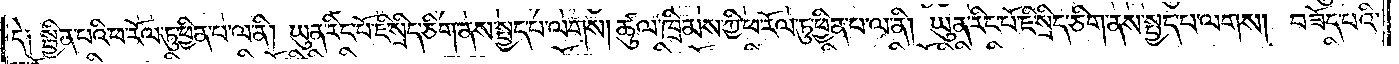དེ༑ སྦྱིན་པའི་ཕ་རོལ་ཏུ་ཕྱིན་པ་ལ་ནི། ཡུན་རིང་པོ་ཇི་སྲིད་ཅིག་ནས་སྤྱད་པ་ལགས། ཚུལ་ཁྲིམས་ཀྱི་ཕ་རོལ་ཏུ་ཕྱིན་པ་ལ་ནི། ཡུན་རིང་པོ་ཇི་སྲིད་ཅིག་ནས་སྤྱད་པ་ལགས། བཟོད་པའི་
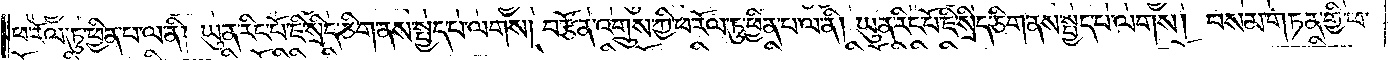ཕ་རོལ་ཏུ་ཕྱིན་པ་ལ་ནི། ཡུན་རིང་པོ་ཇི་སྲིད་ཅིག་ནས་སྤྱད་པ་ལགས། བརྩོན་འགྲུས་ཀྱི་ཕ་རོལ་ཏུ་ཕྱིན་པ་ལ་ནི། ཡུན་རིང་པོ་ཇི་སྲིད་ཅིག་ནས་སྤྱད་པ་ལགས། བསམ་གཏན་གྱི་ཕ་
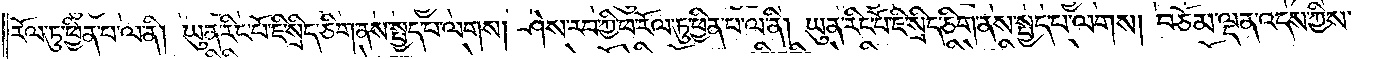རོལ་ཏུ་ཕྱིན་པ་ལ་ནི། ཡུན་རིང་པོ་ཇི་སྲིད་ཅིག་ནས་སྤྱོད་པ་ལགས། ཤེས་རབ་ཀྱི་ཕ་རོལ་ཏུ་ཕྱིན་པ་ལ་ནི། ཡུན་རིང་པོ་ཇི་སྲིད་ཅིག་ནས་སྤྱད་པ་ལགས། བཅོམ་ལྡན་འདས་ཀྱིས་
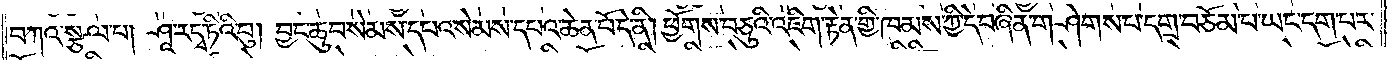བཀའ་སྩལ་པ། ཤཱ་ར་དྭ་ཏིའི་བུ། བྱང་ཆུབ་སེམས་དཔའ་སེམས་དཔའ་ཆེན་པོ་དེ་ནི། ཕྱོགས་བཅུའི་འཇིག་རྟེན་གྱི་ཁམས་ཀྱི་དེ་བཞིན་གཤེགས་པ་དགྲ་བཅོམ་པ་ཡང་དག་པར་
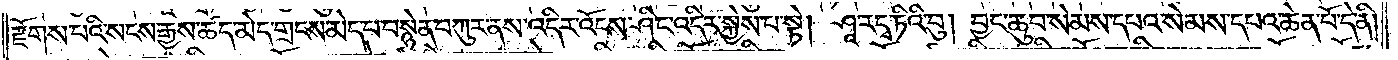རྫོགས་པའི་སངས་རྒྱས་ཚད་མེད་གྲངས་མེད་པ་བསྙེན་བཀུར་ནས་འདིར་འོངས་ཤིང་འདིར་སྐྱེས་པ་སྟེ། ཤཱ་ར་དྭ་ཏིའི་བུ། བྱང་ཆུབ་སེམས་དཔའ་སེམས་དཔའ་ཆེན་པོ་དེ་ནི།
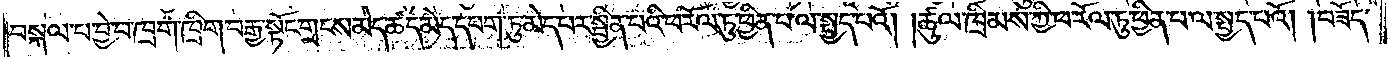བསྐལ་པ་བྱེ་བ་ཁྲག་ཁྲིག་བརྒྱ་སྟོང་གྲངས་མེད་ཚད་མེད་དཔག་ཏུ་མེད་པར་སྦྱིན་པའི་ཕ་རོལ་ཏུ་ཕྱིན་པ་ལ་སྤྱད་པའོ། །ཚུལ་ཁྲིམས་ཀྱི་ཕ་རོལ་ཏུ་ཕྱིན་པ་ལ་སྤྱད་པའོ། །བཟོད་
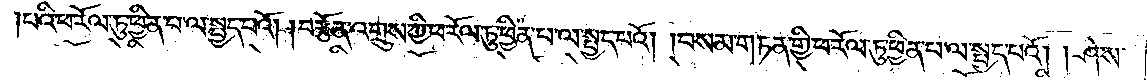པའི་ཕ་རོལ་ཏུ་ཕྱིན་པ་ལ་སྤྱད་པའོ། །བརྩོན་འགྲུས་ཀྱི་ཕ་རོལ་ཏུ་ཕྱིན་པ་ལ་སྤྱད་པའོ། །བསམ་གཏན་གྱི་ཕ་རོལ་ཏུ་ཕྱིན་པ་ལ་སྤྱད་པའོ། །ཤེས་
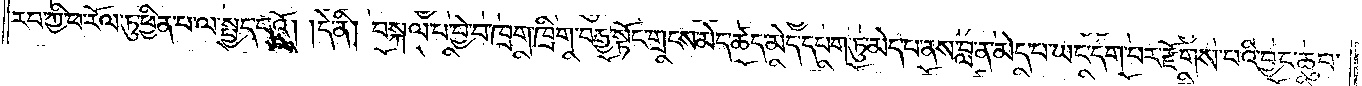རབ་ཀྱི་ཕ་རོལ་ཏུ་ཕྱིན་པ་ལ་སྤྱད་པའོ། །དེ་ནི། བསྐལ་པ་བྱེ་བ་ཁྲག་ཁྲིག་བརྒྱ་སྟོང་གྲངས་མེད་ཚད་མེད་དཔག་ཏུ་མེད་པ་ནས་བླ་ན་མེད་པ་ཡང་དག་པར་རྫོགས་པའི་བྱང་ཆུབ་
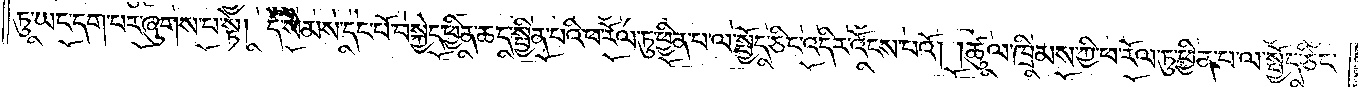ཏུ་ཡང་དག་པར་ཞུགས་པ་སྟེ། དེ་སེམས་དང་པོ་བསྐྱེད་ཕྱིན་ཆད་སྦྱིན་པའི་ཕ་རོལ་ཏུ་ཕྱིན་པ་ལ་སྤྱོད་ཅིང་འདིར་འོངས་པའོ། །ཚུལ་ཁྲིམས་ཀྱི་ཕ་རོལ་ཏུ་ཕྱིན་པ་ལ་སྤྱོད་ཅིང་
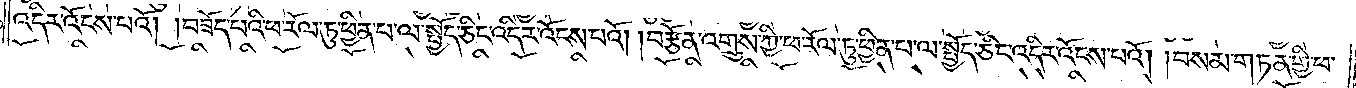འདིར་འོངས་པའོ། །བཟོད་པའི་ཕ་རོལ་ཏུ་ཕྱིན་པ་ལ་སྤྱོད་ཅིང་འདིར་འོངས་པའོ། །བརྩོན་འགྲུས་ཀྱི་ཕ་རོལ་ཏུ་ཕྱིན་པ་ལ་སྤྱོད་ཅིང་འདིར་འོངས་པའོ། །བསམ་གཏན་གྱི་ཕ་
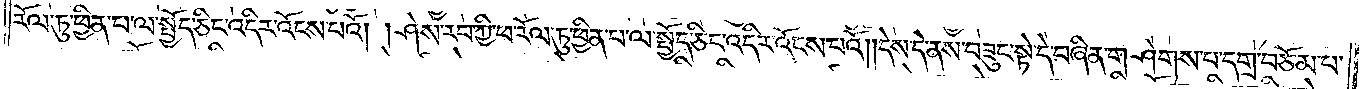རོལ་ཏུ་ཕྱིན་པ་ལ་སྤྱོད་ཅིང་འདིར་འོངས་པའོ། །ཤེས་རབ་ཀྱི་ཕ་རོལ་ཏུ་ཕྱིན་པ་ལ་སྤྱོད་ཅིང་འདིར་འོངས་པའོ། །དེས་དེ་ནས་བཟུང་སྟེ་དེ་བཞིན་གཤེགས་པ་དགྲ་བཅོམ་པ་
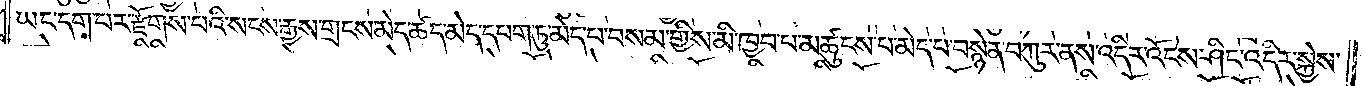ཡང་དག་པར་རྫོགས་པའི་སངས་རྒྱས་གྲངས་མེད་ཚད་མེད་དཔག་ཏུ་མེད་པ་བསམ་གྱིས་མི་ཁྱབ་པ་མཚུངས་པ་མེད་པ་བསྙེན་བཀུར་ནས་འདིར་འོངས་ཤིང་འདིར་སྐྱེས་
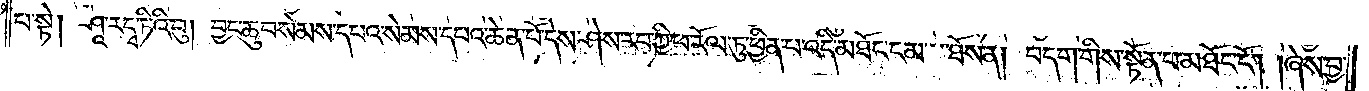པ་སྟེ། ཤཱ་ར་དྭ་ཏིའི་བུ། བྱང་ཆུབ་སེམས་དཔའ་སེམས་དཔའ་ཆེན་པོ་དེས་ཤེས་རབ་ཀྱི་ཕ་རོལ་ཏུ་ཕྱིན་པ་འདི་མཐོང་ངམ་ཐོས་ན། བདག་གིས་སྟོན་པ་མཐོང་ངོ༌། །ཞེས་བྱ་
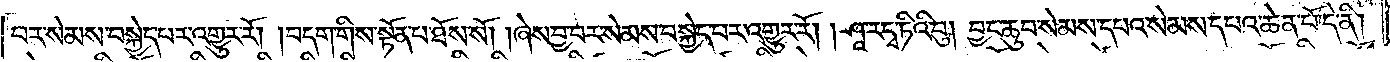བར་སེམས་བསྐྱེད་པར་འགྱུར་རོ། །བདག་གིས་སྟོན་པ་ཐོས་སོ། །ཞེས་བྱ་བར་སེམས་བསྐྱེད་པར་འགྱུར་རོ། །ཤཱ་ར་དྭ་ཏིའི་བུ། བྱང་ཆུབ་སེམས་དཔའ་སེམས་དཔའ་ཆེན་པོ་དེ་ནི།
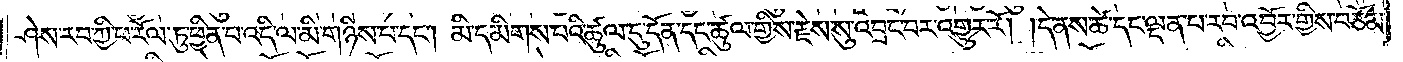ཤེས་རབ་ཀྱི་ཕ་རོལ་ཏུ་ཕྱིན་པ་འདི་ལ་མི་གཉིས་པ་དང༌། མི་དམིགས་པའི་ཚུལ་དུ་དོན་དང་ཚུལ་གྱིས་རྗེས་སུ་འབྲང་བར་འགྱུར་རོ། །དེ་ནས་ཚེ་དང་ལྡན་པ་རབ་འབྱོར་གྱིས་བཅོམ་
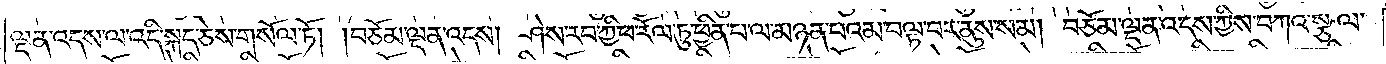ལྡན་འདས་ལ་འདི་སྐད་ཅེས་གསོལ་ཏོ། །བཅོམ་ལྡན་འདས། ཤེས་རབ་ཀྱི་ཕ་རོལ་ཏུ་ཕྱིན་པ་ལ་མཉན་པའམ་བལྟ་བར་ནུས་སམ། བཅོམ་ལྡན་འདས་ཀྱིས་བཀའ་སྩལ་
